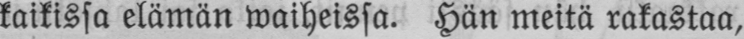kaikissa elämän waiheissa. Hän meitä rakastaa,
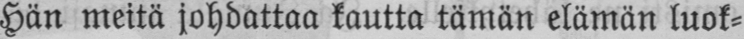Hän meitä johdattaa kautta tämän elämän luok-
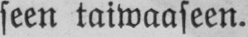seen taiwaaseen.
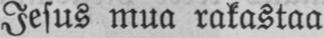Jesus mua rakastaa
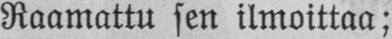Raamattu sen ilmoittaa;
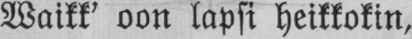Waikk' oon lapsi heikkokin.
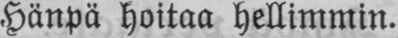Hänpä hoitaa hellimmin.
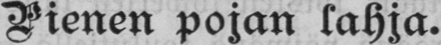pienen pojan lahja.
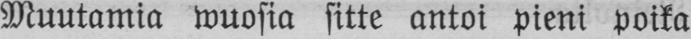Muutamia wuosia sitte antoi pieni poika
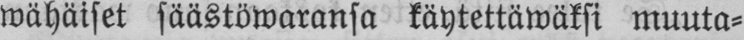wähäiset säästöwaransa käytettäwäksi muuta-
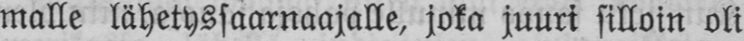malle lähetyssaarnaajalle, joka juuri silloin oli
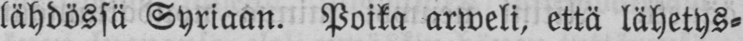lähdössä Syriaan. Poika arweli, että lähetys-
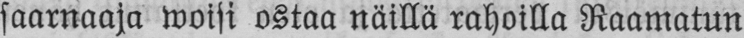saarnaaja woisi ostaa näillä rahoilla Raamatun
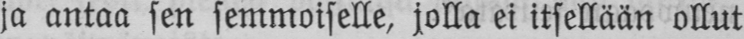ja antaa sen semmoiselle, jolla ei itsellään ollut
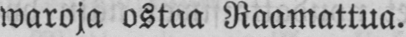waroja ostaa Raamattua.
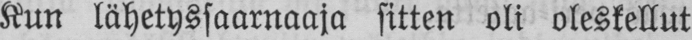Kun lähetyssaarnaaja sitten oli oleskellut
